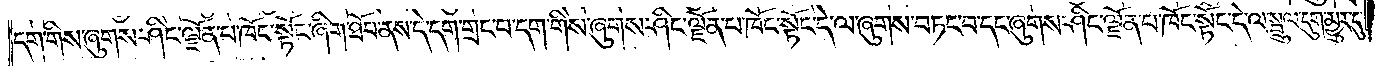དག་གིས་ཞུགས་ཤིང་ལྗོན་པ་ཁོང་སྟོང་ཞིག་ཐོབ་ནས་དེ་དག་གྲང་བ་དག་གིས་ཞུགས་ཤིང་ལྗོན་པ་ཁོང་སྟོང་དེ་ལ་ཞུགས་བཏང་བ་དང་ཞུགས་ཤིང་ལྗོན་པ་ཁོང་སྟོང་དེ་ལ་སྦྲུལ་དུག་མྱུར་དུ་
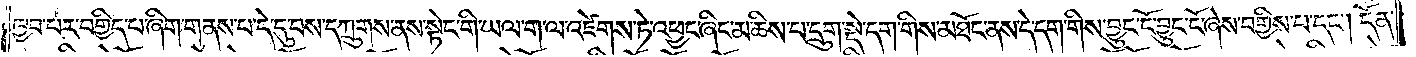ཁྱབ་པར་བགྱིད་པ་ཞིག་གནས་པ་དེ་དུ་བས་དཀྲུགས་ནས་སྟེང་གི་ཡལ་ག་ལ་འཛེགས་ཏེ་འཕྱང་ཞིང་མཆིས་པ་དྲུག་སྡེ་དག་གིས་མཐོང་ནས་དེ་དག་གིས་བྱུང་ངོ་བྱུང་ངོ་ཞེས་བགྱིས་པ་དང༌། དོན་
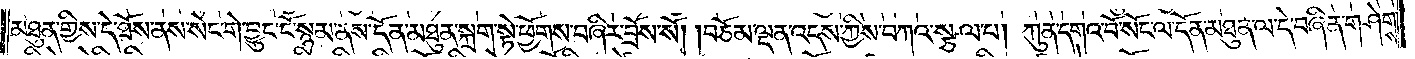མཐུན་གྱིས་དེ་ཐོས་ནས་སེང་གེ་བྱུང་ངོ་སྙམ་ནས་དོན་མཐུན་སྐྲག་སྟེ་ཕྱོགས་བཞིར་བྲོས་སོ། །བཅོམ་ལྡན་འདས་ཀྱིས་བཀའ་སྩལ་པ། ཀུན་དགའ་བོ་སོང་ལ་དོན་མཐུན་ལ་དེ་བཞིན་གཤེགས་
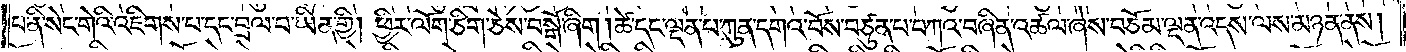པ་ནི་སེང་གེའི་འཇིགས་པ་དང་བྲལ་བ་ཡིན་གྱི། ཕྱིར་ལོག་ཅིག་ཅེས་བསྒོ་ཞིག །ཚེ་དང་ལྡན་པ་ཀུན་དགའ་བོས་བཙུན་པ་བཀའ་བཞིན་འཚལ་ཞེས་བཅོམ་ལྡན་འདས་ལས་མཉན་ནས།
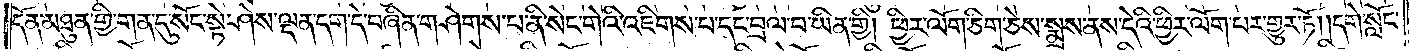དོན་མཐུན་གྱི་གན་དུ་སོང་སྟེ་ཤེས་ལྡན་དག་དེ་བཞིན་གཤེགས་པ་ནི་སེང་གེའི་འཇིགས་པ་དང་བྲལ་བ་ཡིན་གྱི། ཕྱིར་ལོག་ཅིག་ཅེས་སྨྲས་ནས་དེའི་ཕྱིར་ལོག་པར་གྱུར་ཏོ། །དགེ་སློང་
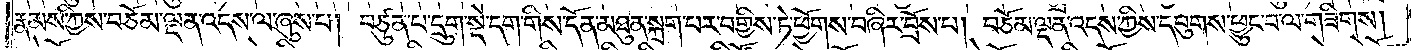རྣམས་ཀྱིས་བཅོམ་ལྡན་འདས་ལ་ཞུས་པ། བཙུན་པ་དྲུག་སྡེ་དག་གིས་དོན་མཐུན་སྐྲག་པར་བགྱིས་ཏེ་ཕྱོགས་བཞིར་བྲོས་པ། བཅོམ་ལྡན་འདས་ཀྱིས་དབུགས་ཕྱུང་བ་ལ་གཟིགས།
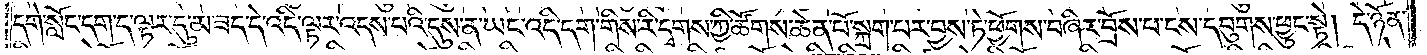དགེ་སློང་དག་ད་ལྟར་དུ་མ་ཟད་དེ་འདི་ལྟར་འདས་པའི་དུས་ན་ཡང་འདི་དག་གིས་རི་དྭགས་ཀྱི་ཚོགས་ཆེན་པོ་སྐྲག་པར་བྱས་ཏེ་ཕྱོགས་བཞིར་བྲོས་པ་ངས་དབུགས་ཕྱུང་སྟེ། དེ་ཉོན་
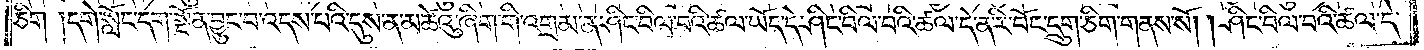ཅིག །དགེ་སློང་དག་སྔོན་བྱུང་བ་འདས་པའི་དུས་ན་མཚེའུ་ཞིག་གི་འགྲམ་ན་ཤིང་བིལ་བའི་ཚལ་ཡོད་དེ་ཤིང་བིལ་བའི་ཚལ་དེ་ན་རི་བོང་དྲུག་ཅིག་གནས་སོ། །ཤིང་བིལ་བའི་ཚལ་དེ་
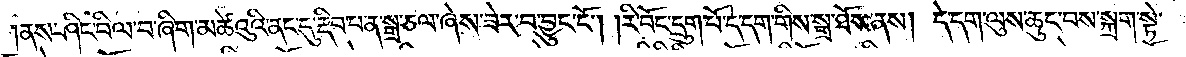ནས་ཤིང་བིལ་བ་ཞིག་མཚེའུའི་ནང་དུ་རྡིབ་པ་ན་སྒྲ་ཅལ་ཞེས་ཟེར་བ་བྱུང་ངོ༌། །རི་བོང་དྲུག་པོ་དེ་དག་གིས་སྒྲ་ཐོས་ནས། དེ་དག་ལུས་ཆུང་བས་སྐྲག་སྟེ་
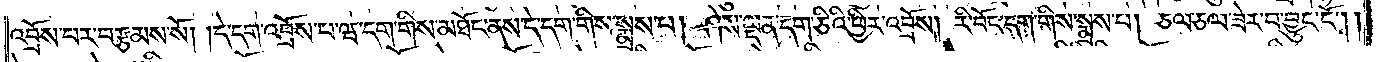འབྲོས་པར་བརྩམས་སོ། །དེ་དག་འབྲོས་པ་ཝ་དག་གིས་མཐོང་ནས་དེ་དག་གིས་སྨྲས་པ། ཤེས་ལྡན་དག་ཅིའི་ཕྱིར་འབྲོས། རི་བོང་དག་གིས་སྨྲས་པ། ཅལ་ཅལ་ཟེར་བ་བྱུང་ངོ༌། །
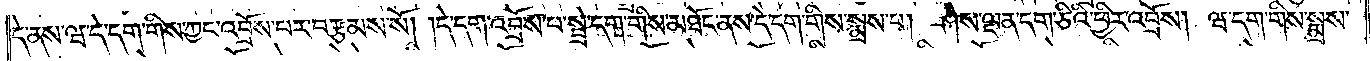དེ་ནས་ཝ་དེ་དག་གིས་ཀྱང་འབྲོས་པར་བརྩམས་སོ། །དེ་དག་འབྲོས་པ་སྦྲེ་དག་གིས་མཐོང་ནས་དེ་དག་གིས་སྨྲས་པ། ཤེས་ལྡན་དག་ཅིའི་ཕྱིར་འབྲོས། ཝ་དག་གིས་སྨྲས་
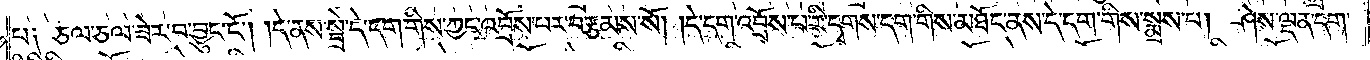པ། ཅལ་ཅལ་ཟེར་བ་བྱུང་ངོ༌། །དེ་ནས་སྤྲེ་དེ་དག་གིས་ཀྱང་འབྲོས་པར་བརྩམས་སོ། །དེ་དག་འབྲོས་པ་རི་དྭགས་དག་གིས་མཐོང་ནས་དེ་དག་གིས་སྨྲས་པ། ཤེས་ལྡན་དག་
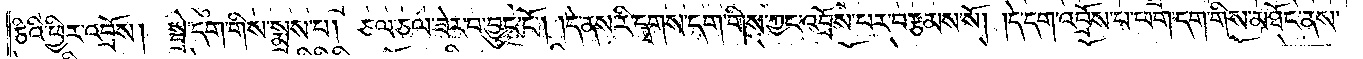ཅིའི་ཕྱིར་འབྲོས། སྦྲེ་དག་གིས་སྨྲས་པ། ཅལ་ཅལ་ཟེར་བ་བྱུང་ངོ༌། །དེ་ནས་རི་དྭགས་དག་གིས་ཀྱང་འབྲོས་པར་བརྩམས་སོ། །དེ་དག་འབྲོས་པ་ཕག་དག་གིས་མཐོང་ནས་
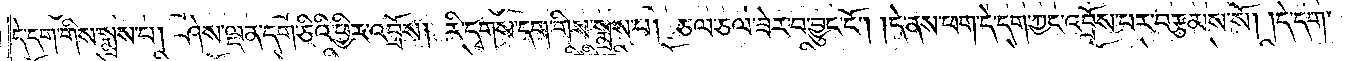དེ་དག་གིས་སྨྲས་པ། ཤེས་ལྡན་དག་ཅིའི་ཕྱིར་འབྲོས། རི་དྭགས་དག་གིས་སྨྲས་པ། ཅལ་ཅལ་ཟེར་བ་བྱུང་ངོ༌། །དེ་ནས་ཕག་དེ་དག་ཀྱང་འབྲོས་པར་བརྩམས་སོ། །དེ་དག་
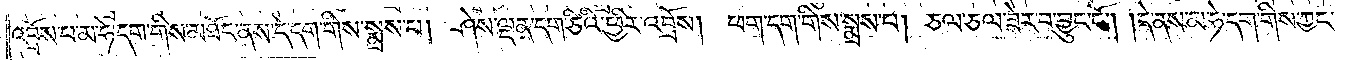འབྲོས་པ་མ་ཧེ་དག་གིས་མཐོང་ནས་དེ་དག་གིས་སྨྲས་པ། ཤེས་ལྡན་དག་ཅིའི་ཕྱིར་འབྲོས། ཕག་དག་གིས་སྨྲས་པ། ཅལ་ཅལ་ཟེར་བ་བྱུང་ངོ༌། །དེ་ནས་མ་ཧེ་དག་གིས་ཀྱང་
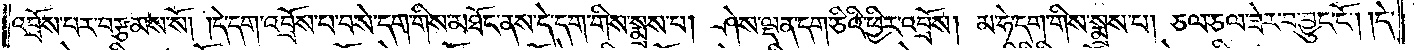འབྲོས་པར་བརྩམས་སོ། །དེ་དག་འབྲོས་པ་བསེ་དག་གིས་མཐོང་ནས་དེ་དག་གིས་སྨྲས་པ། ཤེས་ལྡན་དག་ཅིའི་ཕྱིར་འབྲོས། མ་ཧེ་དག་གིས་སྨྲས་པ། ཅལ་ཅལ་ཟེར་བ་བྱུང་ངོ༌། །དེ་
